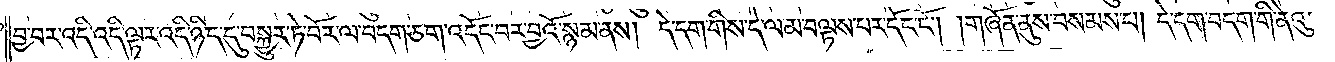བྱ་བར་འདི་འདི་ལྟར་འདི་ཉིད་དུ་བསྐྱུར་ཏེ་བོར་ལ་བདག་ཅག་འདོང་བར་བྱའོ་སྙམ་ནས། དེ་དག་གིས་དེ་ལ་མ་བལྟས་པར་དོང་ངོ༌། །གཞོན་ནུས་བསམས་པ། དེ་དག་བདག་གི་ནེའུ་
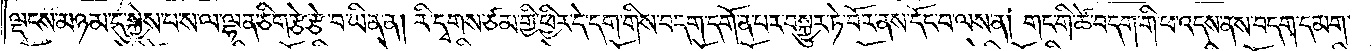ལྡངས་མཉམ་དུ་སྐྱེས་པ་ས་ལ་ལྷན་ཅིག་རྩེ་རྩེ་བ་ཡིན་ན། རི་དྭགས་ཙམ་གྱི་ཕྱིར་དེ་དག་གིས་བདག་དགོན་པར་བསྐྱུར་ཏེ་བོར་ནས་དོང་བ་ལས་ན། གང་གི་ཚེ་བདག་གི་ཕ་འདས་ནས་བདག་དམག་
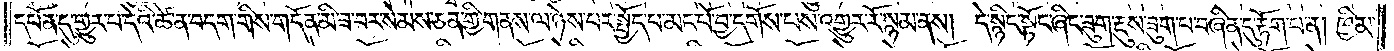དཔོན་དུ་གྱུར་པ་དེའི་ཚེ་ན་བདག་གིས་གདོན་མི་ཟ་བར་སེམས་ཅན་གྱི་གནས་ལ་ཉེས་པར་སྤྱོད་པ་མང་པོ་བྱ་དགོས་པས་འགྱུར་རོ་སྙམ་ནས། དེ་སྙིང་སྟོང་ཞིང་ཟུག་རྔུས་ཟུག་པ་བཞིན་དུ་རྟོག་པ་ན། ཁྱིམ་
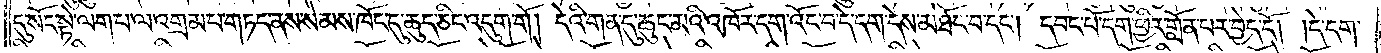དུ་སོང་སྟེ་ལག་པ་ལ་འགྲམ་པ་གཏད་ནས་སེམས་ཁོང་དུ་ཆུད་ཅིང་འདུག་གོ། དེའི་གན་དུ་ཆུང་མའི་འཁོར་དག་འོང་བ་དེ་དག་དེས་མཐོང་བ་དང༌། དབང་པོ་དག་ཕྱིར་གློན་པར་བྱེད་དོ། །དེ་དག་
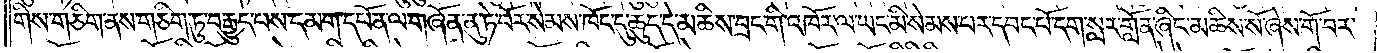གིས་གཅིག་ནས་གཅིག་ཏུ་བརྒྱུད་པས་དམག་དཔོན་ལ་གཞོན་ནུ་ཏེ་བོར་སེམས་ཁོང་དུ་ཆུད་དེ་མཆིས་བྲང་གི་འཁོར་ལ་ཡང་མི་སེམས་པར་དབང་པོ་དག་སླར་གློན་ཞིང་མཆིས་སོ་ཞེས་གོ་བར་
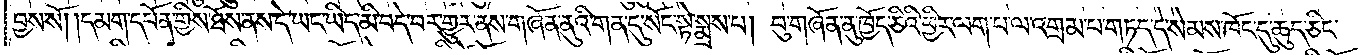བྱས་སོ། །དམག་དཔོན་གྱིས་ཐོས་ནས་དེ་ཡང་ཡིད་མི་བདེ་བར་གྱུར་ནས་གཞོན་ནུའི་གན་དུ་སོང་སྟེ་སྨྲས་པ། བུ་གཞོན་ནུ་ཁྱོད་ཅིའི་ཕྱིར་ལག་པ་ལ་འགྲམ་པ་གཏད་དེ་སེམས་ཁོང་དུ་ཆུད་ཅིང་
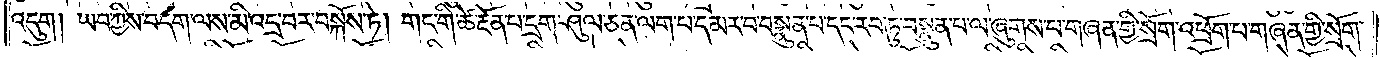འདུག། ཡབ་ཀྱིས་བདག་ལས་མི་འདྲ་བར་བསྐོས་ཏེ། གང་གི་ཚེ་རྔོན་པ་དྲག་ཤུལ་ཅན་ལག་པ་དམར་བ་བསྣུན་པ་དང་རབ་ཏུ་བསྣུན་པ་ལ་ཞུགས་པ་གཞན་གྱི་སྲོག་འཕྲོག་པ་གཞན་གྱི་སྲོག་
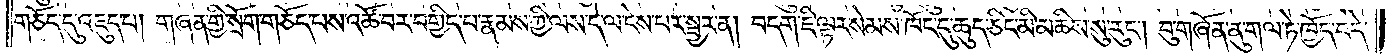གཅོད་དུ་འཇུད་པ། གཞན་གྱི་སྲོག་གཅོད་པས་འཚོ་བར་བགྱིད་པ་རྣམས་ཀྱི་ལས་དེ་ལ་ངེས་པར་སྦྱར་ན། བདག་ཇི་ལྟར་སེམས་ཁོང་དུ་ཆུད་ཅིང་མི་མཆིས་སུ་རུང༌། བུ་གཞོན་ནུ་གལ་ཏེ་ཁྱོད་བདེ་
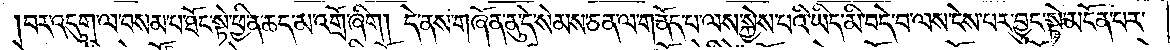བར་འདུག་ལ་བསམ་པ་ཐོང་སྟེ་ཕྱིན་ཆད་མ་འགྲོ་ཞིག། དེ་ནས་གཞོན་ནུ་དེ་སེམས་ཅན་ལ་གནོད་པ་ལས་སྐྱེས་པའི་ཡིད་མི་བདེ་བ་ལས་ངེས་པར་བྱུང་སྟེ་མངོན་པར་
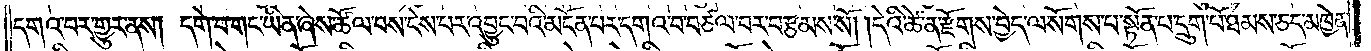དགའ་བར་གྱུར་ནས། དགེ་བ་གང་ཡིན་ཞེས་ཚོལ་བས་ངེས་པར་འབྱུང་བའི་མངོན་པར་དགའ་བ་བཙལ་བར་བརྩམས་སོ། །དེའི་ཚེ་ན་རྫོགས་བྱེད་ལ་སོགས་པ་སྟོན་པ་དྲུག་པོ་ཐམས་ཅད་མཁྱེན་
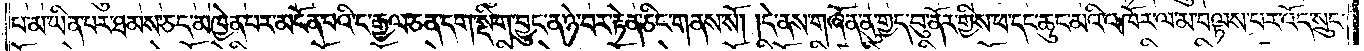པ་མ་ཡིན་པར་ཐམས་ཅད་མཁྱེན་པར་མངོན་པའི་ང་རྒྱལ་ཅན་དག་སྡིག་བྱུང་ན་ཉེ་བར་རྟེན་ཅིང་གནས་སོ། །དེ་ནས་གཞོན་ནུ་གྱད་བུ་ནོར་གྱིས་ཕ་དང་ཆུང་མའི་འཁོར་ལ་མ་བལྟས་པར་འོད་སྲུང་
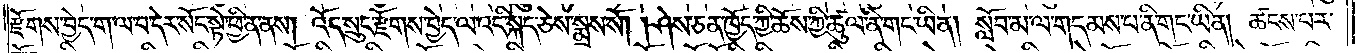རྫོགས་བྱེད་ག་ལ་བ་དེར་སོང་སྟེ་ཕྱིན་ནས། འོད་སྲུང་རྫོགས་བྱེད་ལ་འདི་སྐད་ཅེས་སྨྲས་སོ། །ཤེས་ཅན་ཁྱོད་ཀྱི་ཆོས་ཀྱི་ཚུལ་ནི་གང་ཡིན། སློབ་མ་ལ་གདམས་པ་ནི་གང་ཡིན། ཚངས་པར་
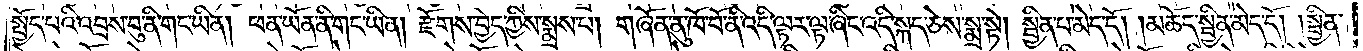སྤྱོད་པའི་འབྲས་བུ་ནི་གང་ཡིན། ཕན་ཡོན་ནི་གང་ཡིན། རྫོགས་བྱེད་ཀྱིས་སྨྲས་པ། གཞོན་ནུ་ཁོ་བོ་ནི་འདི་ལྟར་ལྟ་ཞིང་འདི་སྐད་ཅེས་སྨྲ་སྟེ། སྦྱིན་པ་མེད་དོ། །མཆོད་སྦྱིན་མེད་དོ། །སྦྱིན་
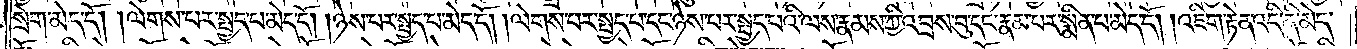སྲེག་མེད་དོ། །ལེགས་པར་སྤྱད་པ་མེད་དོ། །ཉེས་པར་སྤྱད་པ་མེད་དོ། །ལེགས་པར་སྤྱད་པ་དང་ཉེས་པར་སྤྱད་པའི་ལས་རྣམས་ཀྱི་འབྲས་བུ་དང་རྣམ་པར་སྨིན་པ་མེད་དོ། །འཇིག་རྟེན་འདི་ནི་མེད་དོ། འཇིག་རྟེན་འདི་ནི་མེད
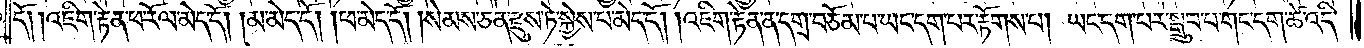དོ། །འཇིག་རྟེན་ཕ་རོལ་མེད་དོ། །མ་མེད་དོ། །ཕ་མེད་དོ། །སེམས་ཅན་རྫུས་ཏེ་སྐྱེས་པ་མེད་དོ། །འཇིག་རྟེན་ན་དགྲ་བཅོམ་པ་ཡང་དག་པར་རྟོགས་པ། ཡང་དག་པར་སྒྲུབ་པ་གང་དག་ཚེ་འདི་
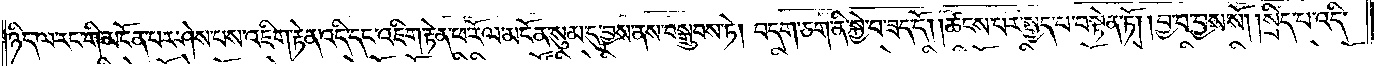ཉིད་ལ་རང་གི་མངོན་པར་ཤེས་པས་འཇིག་རྟེན་འདི་དང་འཇིག་རྟེན་ཕ་རོལ་མངོན་སུམ་དུ་བྱས་ནས་བསྒྲུབས་ཏེ། བདག་ཅག་ནི་སྐྱེ་བ་ཟད་དོ། །ཚངས་པར་སྤྱད་པ་བསྟེན་ཏོ། །བྱ་བ་བྱས་སོ། །སྲིད་པ་འདི་
